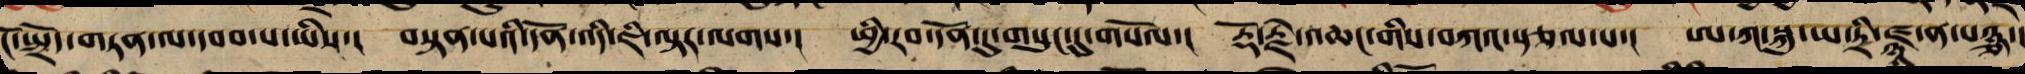ངོ་སྤྲོད་གཏན་ལ་དབབ་པ་ཡིས་། བསྟན་པའི་དོན་འདི་ཇི་ལྟར་ལགས་། ཕྱི་རབ་དོན་དུ་གསུང་དུ་གསོལ་། རྡོ་རྗེ་འཆང་གིས་བཀའ་སྩལ་པ་། ཨ་ཀ་སྐུ་ཡ་ཏྲི་ཛྙཱ་ན་པཉྩ་།
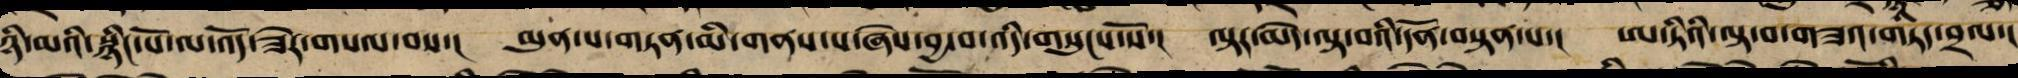ཉི་མའི་སྙིང་པོ་ལ་འོད་ཟེར་གསལ་བས་། མུན་པ་གཏན་མི་གནས་པ་ཞེས་བྱ་བ་འདི་གསུངས་སོ་། ལྟར་མེད་ལྟ་བའི་དོན་བསྟན་པ་། ཨ་ཏིའི་ལྟ་བ་གཟའ་གཏད་བྲལ་།
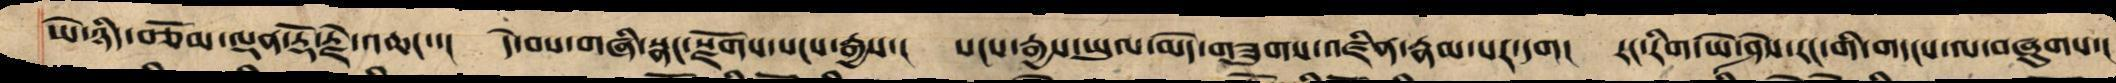ཡེ་ཉིད་བཅོམ་ལྡན་རྡོ་རྗེ་འཆང་་། དེ་བས་གཞི་སྣང་སྫོགས་སངས་རྒྱས་། སངས་རྒྱས་ཡུལ་མེད་གཟུང་འཛིན་རྣམ་པར་དག། རང་རིག་ཡེ་ཤེས་རང་གི་གདངས་ལ་བཞུགས་།
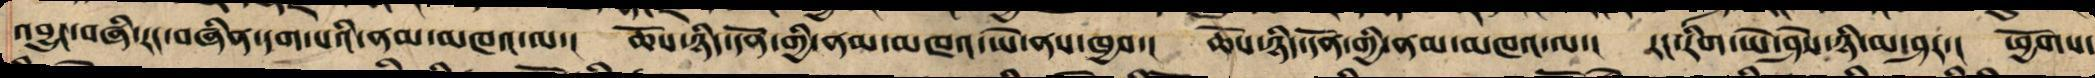འབྱུང་བཞི་རང་བཞིན་དག་པའི་ནམ་མཁའ་ལ་། ཆོས་ཉིད་དོན་གྱི་ནམ་མཁས་ཡེ་ནས་ཁྱབ་། ཆོས་ཉིད་དོན་གྱི་ནམ་མཁའ་ལ་། རང་རིག་ཡེ་ཤེས་ཉི་མ་ཤར་། ཕྱོགས་
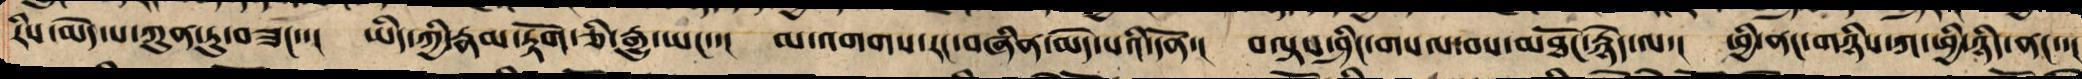རིས་མེད་པ་ཀུན་ཏུ་བཟང་་། ཡིད་ཀྱི་རྣམ་རྟོག་ཅི་འགྱུ་ཡང་་། མ་འགགས་རང་བཞིན་མེད་པའི་དོན་། བལྟས་ཤིང་གསལ་བས་མཐོང་རྙེད་ལ་། ཕྱི་ནང་གཉིས་ཀ་ཕྱི་ཉིད་ནང་་།
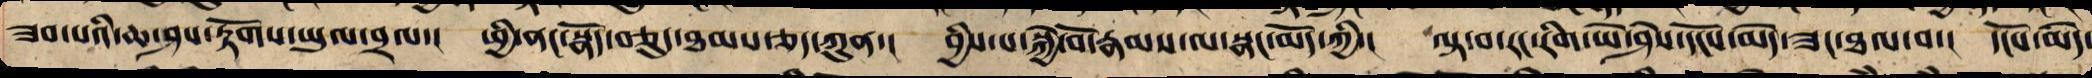ཟབ་པའི་ཆ་ཤས་རྟོགས་ཡུལ་བྲལ་། ཕྱི་ནང་སྣོད་བཅུད་ཐམས་ཅད་ཀུན་། བྱིས་པའི་སྐྱེ་བོ་རྣམས་ལ་སྣང་མོད་ཀྱི་། ལྟ་བ་རང་རིག་ཡེ་ཤེས་དངོས་མེད་ཟང་ཐལ་བ་། དངོས་པོ་
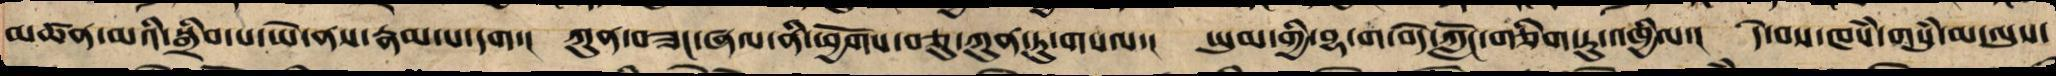མཚན་མའི་སྒྲིབ་པ་ཡེ་ནས་རྣམ་པར་དག། ཀུན་བཟང་ཞལ་ནི་ཕྱོགས་བཅུ་ཀུན་ཏུ་གསལ་། ཡུམ་གྱི་བྷ་ག་བདེ་ཀློང་གཅིག་ཏུ་འཁྱིལ་། དེ་བས་ཁཾས་གསུཾ་མ་ལུས་
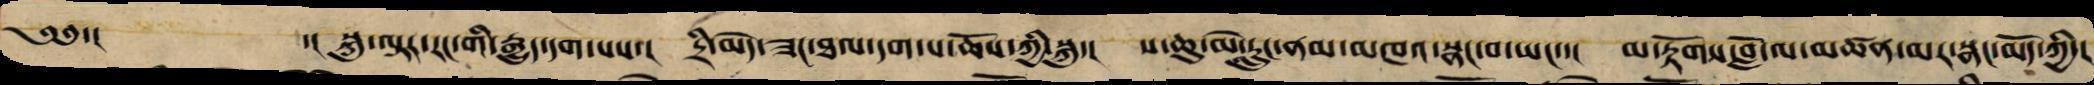༄༅་།  ་། སྐུ་ལྟར་རང་གི་རྒྱུད་དག་པས་། དྲི་མེད་ཟང་ཐལ་དག་པ་ཆོས་ཀྱི་སྐུ་། ས་ཆུ་མེ་རླུང་ནམ་མཁར་སྣང་བ་ཡང་་། མ་རྟོགས་བློ་ལ་ཚད་མར་སྣང་མོད་ཀྱི་།
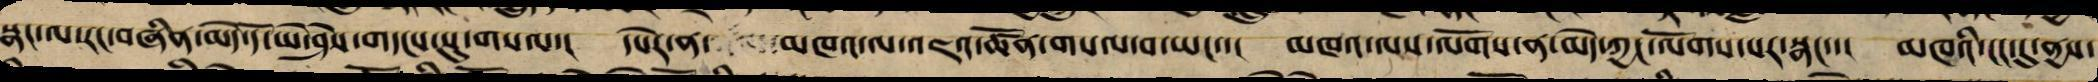སྣང་ལ་རང་བཞིན་མེད་དེ་ཡེ་ཤེས་གདངས་སུ་གསལ་། དཔེར་ན་མཁའ་ལ་འཇའ་ཚོན་གསལ་བ་ཡང་་། མཁའ་ལས་ལོགས་ན་མེད་ཀྱང་ལོགས་པར་སྣང་་། མཁའི་ངང་དུ་གནས་
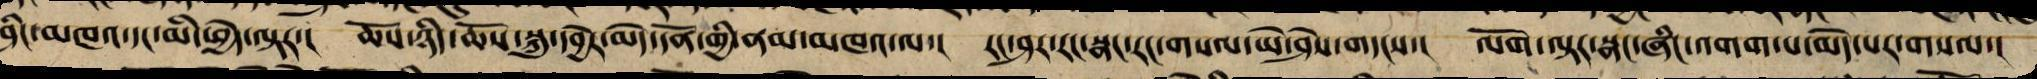ཤིང་མཁའ་དང་མི་ཕྱེད་ལྟར་། ཆོས་ཉིད་ཆོས་སྐུ་དབྱེར་མེད་དོན་གྱི་ནམ་མཁའ་ལ་། རང་ཤར་རང་སྣང་རང་གསལ་ཡེ་ཤེས་གདངས་། ལོགས་ལྟར་སྣང་ཞིང་འགག་པ་མེད་པར་གསལ་།
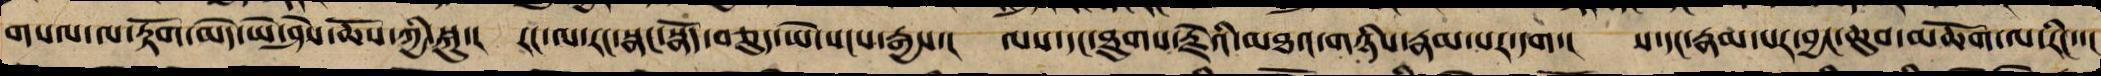གསལ་ལ་རྟོག་མེད་ཡེ་ཤེས་ཆོས་ཀྱི་སྐུ་། རང་ལ་རང་སྣང་སྣོད་བཅུད་ཡེ་སངས་རྒྱས་། ལས་དང་ཐུགས་རྗེའི་མཐའ་གཉིས་རྣམ་པར་དག། ས་དང་རྣམ་ཐར་བྱང་ཆུབ་མཆོག་ལ་རིང་་།
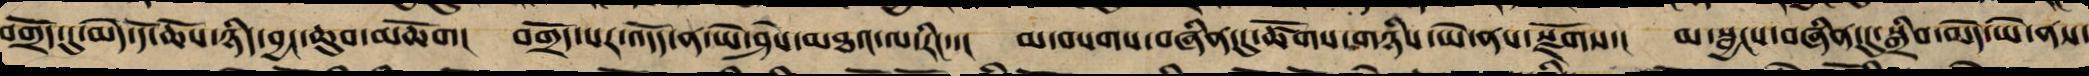བགྲོད་དུ་མེད་དེ་ཆོས་ཉིད་བྱང་ཆུབ་མཆོག། བགྲོད་པར་འདོད་ན་ཡེ་ཤེས་མཐའ་ལ་རིང་་། མ་བསགས་བཞིན་དུ་ཚོགས་གཉིས་ཡེ་ནས་སྫོགས་། མ་སྦྱངས་བཞིན་དུ་སྒྲིབ་གཉིས་ཡེ་ནས་
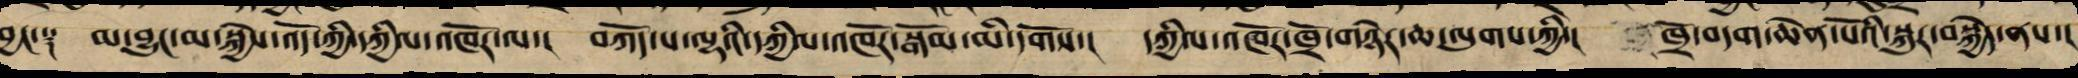བྱང་༑ མ་བྱུང་མ་སྐྱེས་འོད་ཀྱི་དཀྱིལ་འཁོར་ལ་། བཀོད་པ་ལྷ་ཡི་དཀྱིལ་འཁོར་སྒོམ་མི་དགོས་། དཀྱིལ་འཁོར་ཁྲོ་གཉེར་ཆ་ལུགས་ཀྱིས་། ཁྲོ་བདག་ཆེན་པོའི་སྐུར་བསྐྱེད་ནས་།
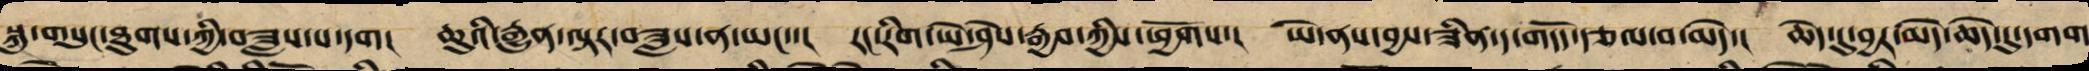སྐུ་གསུང་ཐུགས་ཀྱི་བཟླས་པ་དག། ཆུའི་རྒྱུན་ལྟར་བཟླས་ན་ཡང་་། རང་རིག་ཡེ་ཤེས་རྒྱབ་ཀྱིས་ཕྱོགས་། ཡེ་ནས་བྱས་ཟིན་ད་གདོད་རྩལ་བ་མེད་། ཆེད་དུ་བྱར་མེད་ཆེད་དུ་དགག
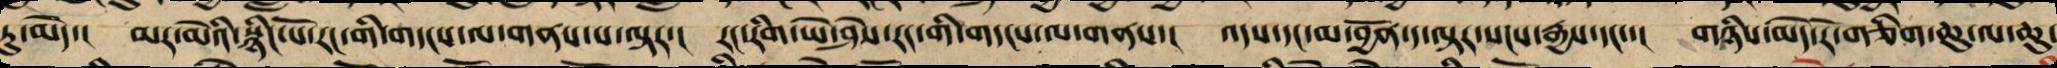ཏུ་མེད་། མར་མེའི་སྙིང་པོ་རང་གི་འོད་ལ་གནས་པ་ལྟར་། རང་རིག་ཡེ་ཤེས་རང་གི་གདངས་ལ་གནས་། འདས་དང་མ་བྱོན་ད་ལྟའི་སངས་རྒྱས་དང་་། གཉིས་མེད་རོ་གཅིག་ཆུ་ལ་ཆུ་
